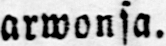arwonsa.
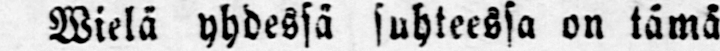Wielä yhdessä suhteessa on tämä
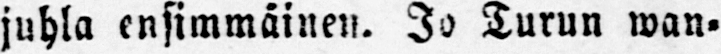juhla ensimmäinen. Jo Turun wan-
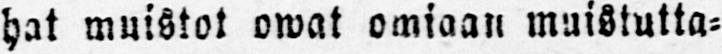hat muistot owat omiaan muistutta-
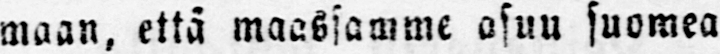maan, että maassamme osuu suomea
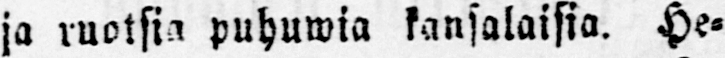ja ruotsia puhuwia kansalaisia. He-
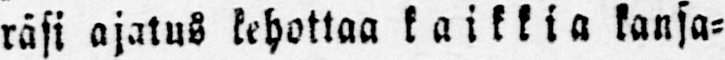räsi ajatus kehottaa kaikkia kansa-
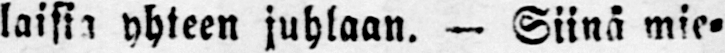laisia yhteen juhlaan. — Siinä mie-
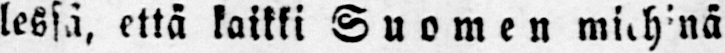lessä, että kaikki Suomen miehinä
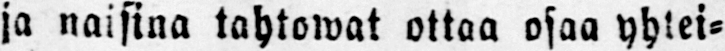ja naisina tahtowat ottoa osaa yhtei-
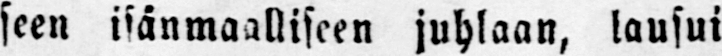seen isänmaalliseen juhlaan, lausui
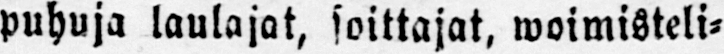puhuja laulajat, soittajat, woimisteli-
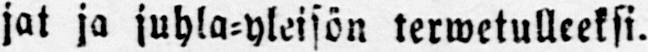jat ja juhla-yleisön terwetulleeksi.
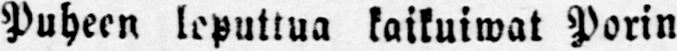Puheen leputtua kaikuiwat Porin
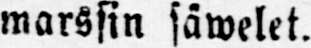marssin säwelet.
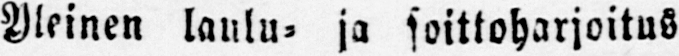Yleinen laulu- ja soittoharjoitus
